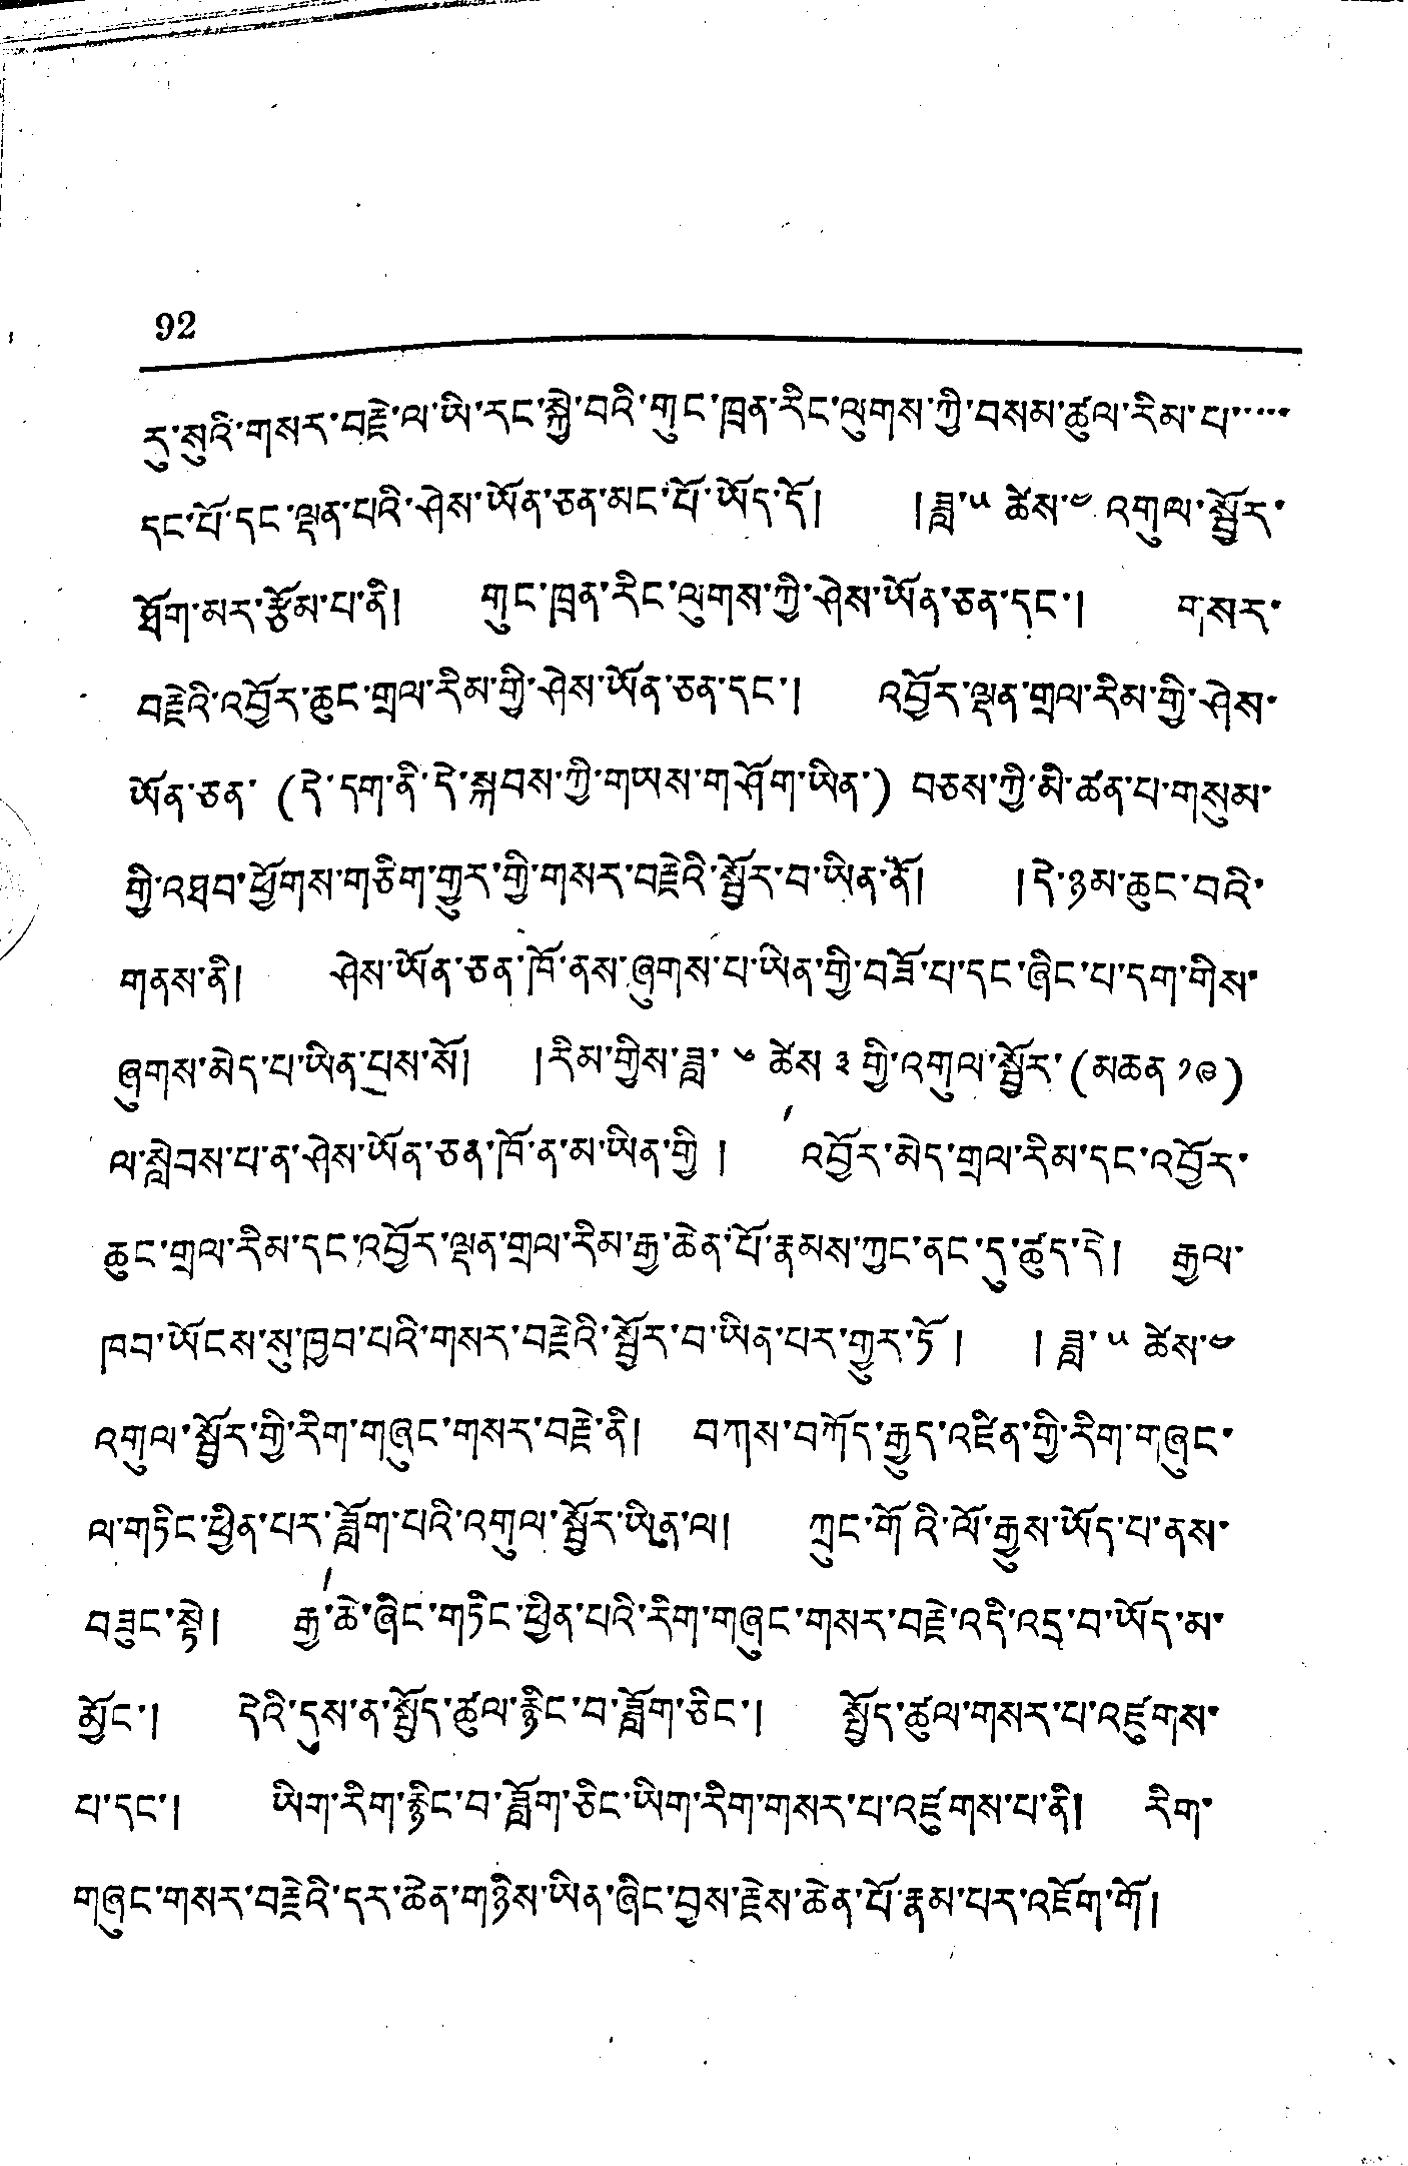92
རུ་སུའི་གསར་བརྗེ་ལ་ཡི་རང་སྐྱེ་བའི་གུང་ཁྲན་རིང་ལུགས་ཀྱི་བསམ་ཚུལ་རིམ་པ་་་་་
དང་པོ་དང་ལྡན་པའི་ཤེས་ཡོན་ཅན་མང་པོ་ཡོད་དོ། །ཟླ་༥ ཚེས་༤ འགུལ་སྦྱོར་
ཐོག་མར་རྩོམ་པ་ནི། གུང་ཁྲན་རིང་ལུགས་ཀྱི་ཤེས་ཡོན་ཅན་དང་། གསར་
བརྗེའི་འབྱོར་ཆུང་གྲལ་རིམ་གྱི་ཤེས་ཡོན་ཅན་དང་། འབྱོར་ལྡན་གྲལ་རིམ་གྱི་ཤེས་
ཡོན་ཅན་(དེ་དག་ནི་དེ་སྐབས་ཀྱི་གམས་གཤོག་ཡིན་) བཅས་ཀྱི་མི་ཚན་པ་གསུམ་
གྱི་འཐབ་ཕྱོགས་གཅིག་གྱུར་གྱི་གསར་བརྗེའི་སྦྱོར་བ་ཡིན་ནོ། །དེ་ཉམ་ཆུང་བའི་
གནས་ནི། ཤེས་ཡོན་ཅན་ཁོ་ནས་ཞུགས་པ་ཡིན་གྱི་བཟོ་པ་དང་ཞིང་པ་དག་གིས་
ཞུགས་མེད་པ་ཡིན་པས་སོ། །རིམ་གྱིས་ཟླ་༦ ཚེས་༣ གྱི་འགུལ་སྦྱོར་(མཆན་ ༡༩)
ལ་སླེབས་པ་ན་ཤེས་ཡོན་ཅན་ཁོ་ན་མ་ཡིན་གྱི ། འབྱོར་མེད་གྲལ་རིམ་དང་འབྱོར་
ཆུང་གྲལ་རིམ་དང་འབྱོར་ལྡན་གྲལ་རིམ་རྒྱུ་ཆེན་པོ་རྣམས་ཀྱང་ནང་དུ་ཚུད་དེ། རྒྱལ་
ཁབ་ཡོངས་སུ་ཁྱབ་པའི་གསར་བརྗེའི་སྦྱོར་བ་ཡིན་པར་གྱུར་ཏོ། ། ཟླ་༥ ཚེས་༤
འགུལ་སྦྱོར་གྱི་རིག་གཞུང་གསར་བརྗེ་ནི། བཀས་བཀོད་རྒྱུད་འཛིན་གྱི་རིག་གཞུང་།
ལ་གཏིང་ཕྱིན་པར་ཟློག་པའི་འགུལ་སྦྱོར་ཡིན་ལ། ཀྲུང་གོའི་ལོ་རྒྱུས་ཡོད་པ་ནས་
བཟུང་སྟེ། རྒྱ་ཆེ་ཞིང་གཏིང་ཕྱིན་པའི་རིག་གཞུང་གསར་བརྗེ་འདི་འདྲ་བ་ཡོད་མ་
མྱོང་། དེའི་དུས་ན་སྤྱོད་ཚུལ་རྙིང་བ་ཟློག་ཅིང་། སྤྱོད་ཚུལ་གསར་པ་འཛུགས་
པ་དང་། ཡིག་རིག་རྙིང་བ་ཟློག་ཅིང་ཡིག་རིག་གསར་པ་འཛུགས་པ་ནི། རིག་
གཞུང་གསར་བརྗེའི་དར་ཆེན་གཉིས་ཡིན་ཞིང་བྱས་རྗེས་ཆེན་པོ་རྣམ་པར་འཇོག་གོ།
